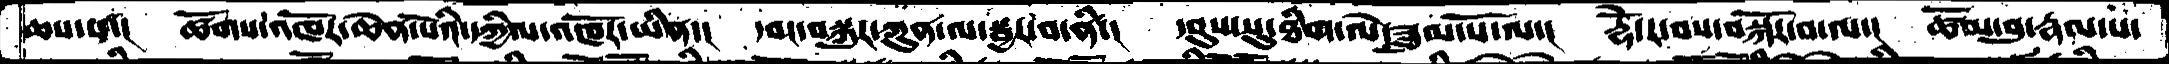ཆས་པ་།  ཚོགས་འཁོར་ཆེན་པོའི་དཀྱིལ་འཁོར་ཡིན་།  དབང་བསྐུར་ཀུན་ལ་སྦྱར་བ་ནི་།  དབུས་སུ་ཐིག་ལེ་ཟླུམ་པོ་ལ་།  རྡོེ་ར་བས་བསྐོར་བ་ལ་།  ཚོམ་བུ་རྣམ་པ་
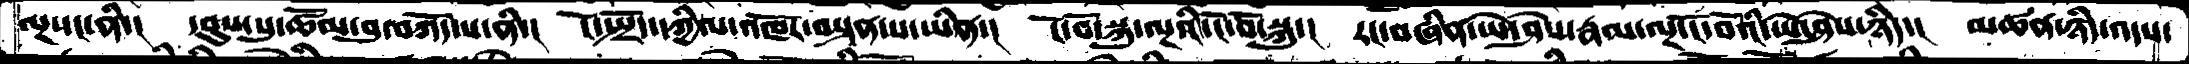ལྔ་དང་ནི་།  དབུས་སུ་ཚོམ་བུ་བཀོད་པ་ནི་།  ངོ་སྤྲོད་དཀྱིལ་འཁོར་བསྟན་པ་ཡིན་།  ངོ་བོ་སྐུ་ལྔའི་ངོ་བོ་སྐུ་།  རང་བཞིན་ཡེ་ཤེས་རྣམ་ལྔ་ངོ་བོའི་ཡེ་ཤེས་ཉིད་།  མཚན་ཉིད་འདས་
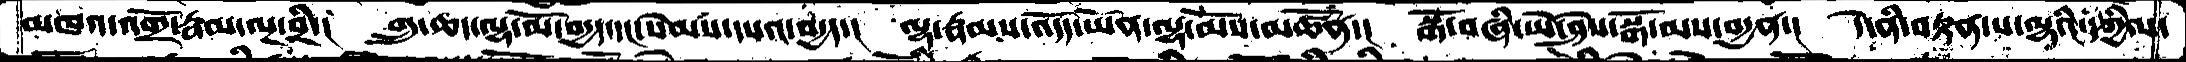མཁའ་འགྲོ་རྣམ་ལྔ་བྲི་།  གྲུ་ཆད་ལྷ་མོ་བདྱད་དང་སེམས་དཔའ་བདྱད་།  ལྷ་རྣམས་འདོད་ཡོན་ལྷ་མོས་མཚོན་།  སྒོ་བཞི་ཡེ་ཤེས་སྒོ་མས་བདྱན་།  དེ་ནི་བསྟན་པ་ལྷའི་དཀྱིལ་
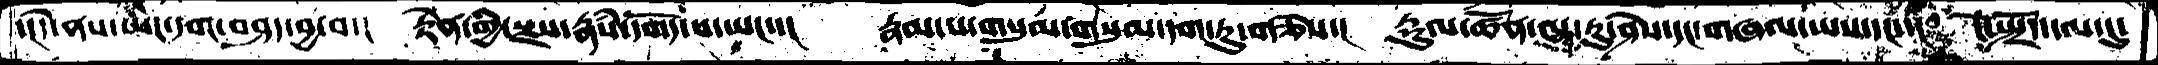་།དེ་ནས་ཡང་དག་བཤད་བྱ་བ་།  རྟེན་གྱི་སྫས་རྣཾས་དགོད་པ་ཡང་་།  རྣམ་པ་གསུམ་གསུམ་དག་ཏུ་གཅེས་།  རྡུལ་ཚོན་ལྷ་རུ་ཤེས་དང་གཞལ་ཡས་དང་།  ངོ་སྤྲོད་ལ་དུ་
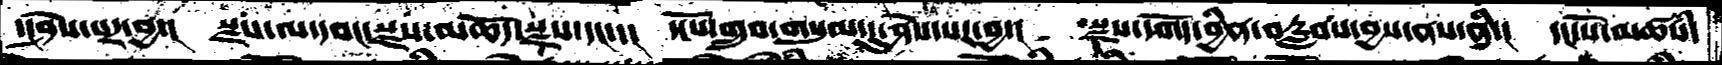་།ཤེས་པར་བྱ་།  སྫས་ལ་དབང་སྫས་མཆོད་སྫས་དང་་།  དངོས་གྲུབ་གསུམ་དུ་ཤེས་པར་བྱ་།  སྫས་དགོད་བྱིན་བརླབས་བྱས་ནས་ནི་།  དང་པོ་མཚཾས་
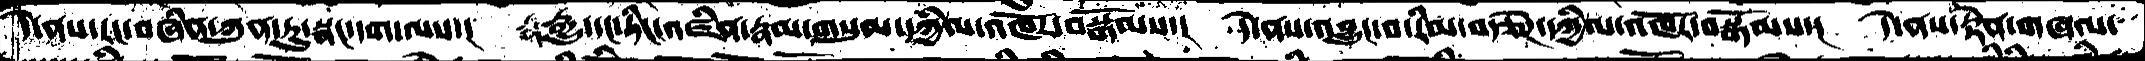དེ་ནས་རང་བཞིན་ཀུན་ཏུ་སྣང་དག་ལས་།  རྒྱུ་དང་ཏིང་འཛིན་རྣམ་གསུམ་དཀྱིལ་འཁོར་བསྒོམས་།  དེ་ནས་འབྱུང་བ་རིམ་བརྩེཌ་དཀྱིལ་འཁོར་བསྒོམས་།  དེ་ནས་རྟེན་གཞལ་
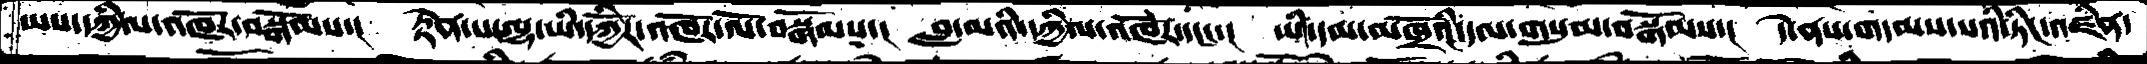ཡས་དཀྱིལ་འཁོར་བསྒོམས་།  རྟེན་པ་ལྷ་ཡི་དཀྱིོར་འཁོར་ལོ་བསྒོམས་།  བླ་མའི་དཀྱིལ་འཁོར་དང་་།  ཡི་དམ་མཁྲོའི་དལ་གསུམ་བསྒོམས་།  དེ་ནས་གདམས་པའི་ཏིང་འཛིན་
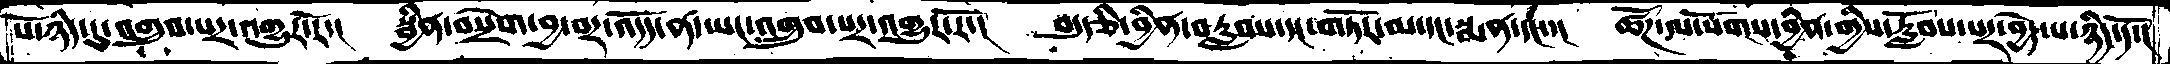པོ་ཉིད་དུ་འགྲུབ་པར་འགྱུར་རོ་།  སྦྱིན་བསྲེག་བྱ་བར་འདོད་ན་ཡང་འགྲུབ་པར་འགྱུར་རོ་།  བདུད་རྩི་བྱིན་བརླབས་དང་གཏོར་མ་དང་སྨན་དང་་།  ཚོཌ་ལ་སོགས་བྱིན་གྱིས་རློབས་པར་བྱེད་པ་ཉིད་དོ་།
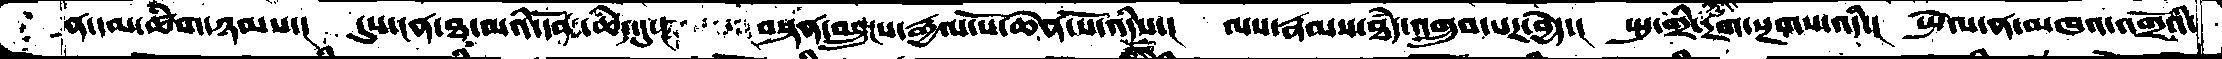ན་དམ་ཚིག་ཉམས་།   དུས་ངན་ཐ་མའི་དོན་ཆེད་དུ་།   བསྟན་བསྲུངས་རྒྱལ་པོ་ཆེན་པོ་འདིས་།  ལས་རྣམས་ཐཾད་འགྲུབ་པར་བྱེད་།  སྤུ་གྲི་དྲག་སྔགས་འདི་།  སྤེལ་ན་མཁའ་འགྲོའི་
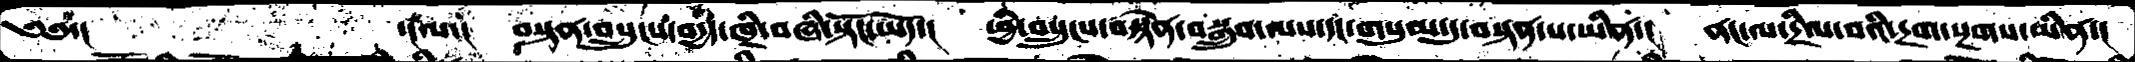༄༅་།        ་།ལ་།  བསྟནབསྲུངས་བདྱད་ཁྲི་བཞི་སྟོང་ཡོད་།   ཕྱི་བསྲུངས་བསྙེནབསྒྲུབ་ལས་དང་གསུམ་དུ་བསྟན་པ་ཡིན་།  ནང་ལ་དྲིལ་བའི་དྲག་སྔགས་ཡིན་།
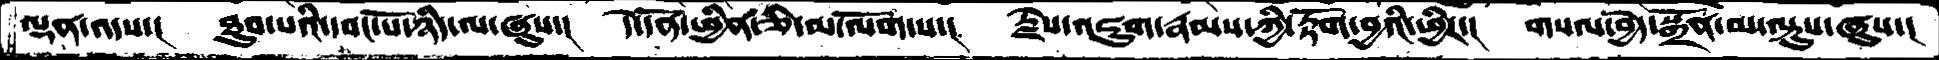ལྡན་འདས་།   ཐུབ་པའི་དབང་པོ་ཉིད་ལ་ཞུས་།  དེ་དོན་ཕྱིན་ཅི་མ་ལོག་པ་།   རྗེས་འཇུག་རྣམས་ཀྱི་རྟོག་བྱའི་ཕྱིར་།  གསལ་བྱེད་སྒྲོན་མ་ལྟུས་ཞུས་།
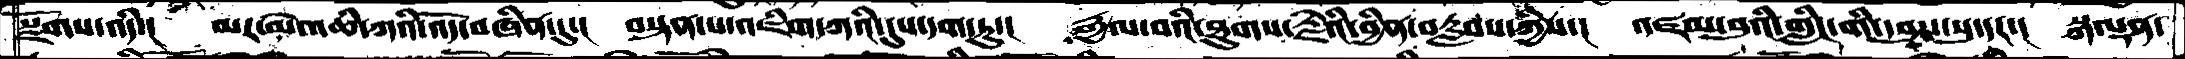སྫོགས་འདི་།   མར་མེ་འཆི་ཀའི་འོད་བཞིན་དུ་།  བསྟན་པ་འཇིག་ཀའི་དུས་དག་ཏུ་།  རྒྱལ་བའི་ཐུགས་རྗེའི་བྱིན་བརླབས་ཀྱིས་།   འཛམ་བུའི་གླིང་གི་དབུས་སུ་དང་།  སྐལྡན་
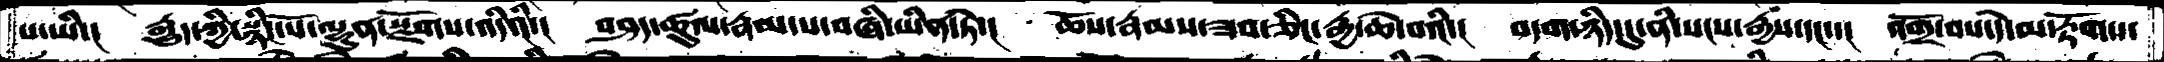པ་ཡི་།  རྒྱུད་ཀྱི་སྙིང་པོ་ལྷུན་སྫོགས་འདིའི་།  བཤད་ཚུལ་རྣམ་པ་བཞི་ཡིན་ཏེ་།  ཆོས་རྣམས་ཟབ་ཅིང་རྒྱ་ཆེ་བའི་།  བདག་ཉིད་དུ་ནི་སངས་རྒྱས་དང་་།  འགྲོ་བས་དེ་མ་རྟོགས་
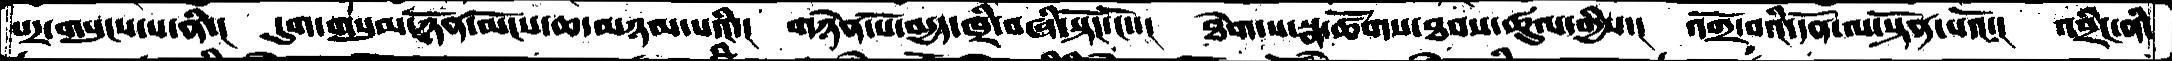པར་གསུངས་པ་ནི་།  དུག་གསུམ་ཉོན་མོངས་ཆ་མཉམ་པའི་།  གཉེན་པོ་བདྱད་ཁྲི་བཞི་སྟོང་ངོས་།  ཐེག་པ་སྣ་ཚོགས་ཐབས་ཚུལ་གྱིས་།  འགྲོ་བའི་དོན་ལ་སྟོན་པའོ་། འབྲིང་ནི་
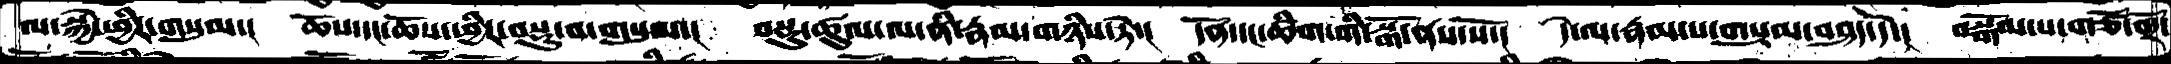ལ་སྐྱེ་ཕྱིར་གསུམ་།  ཆོས་དང་ཆོས་ཕྱིར་བསྡུ་བ་གསུམ་།  བསྡུ་ཚུལ་ལ་ནི་རྣམ་གཉིས་ཏེ་།  དོན་དང་ཚིག་གི་སྒོ་ནས་སོ་།  དེ་ལ་རྣམ་པ་གསུམ་བཤད་དོ་།  བསྒོམ་པ་གཙོ་བོར་
